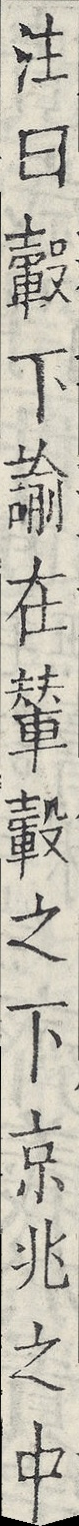注曰轂下諭在輦轂之下京兆之中
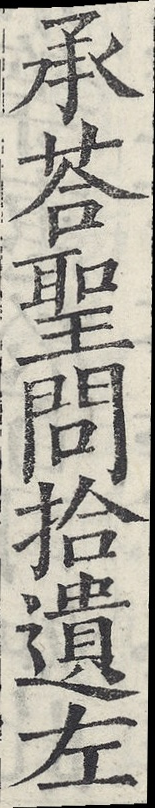承荅聖問拾遺左
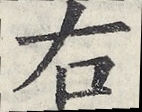右
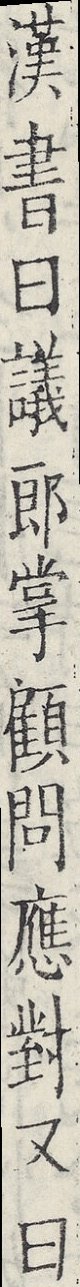漢書曰議郎掌顧問應對又曰
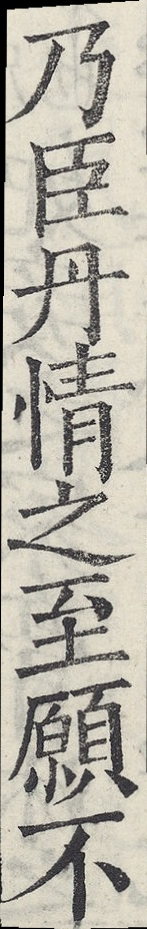乃臣丹情之至願不
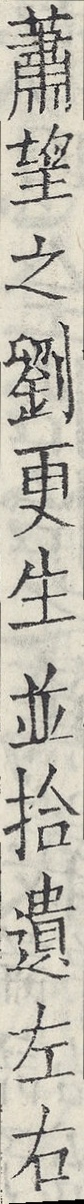蕭望之劉更生並拾遺左右
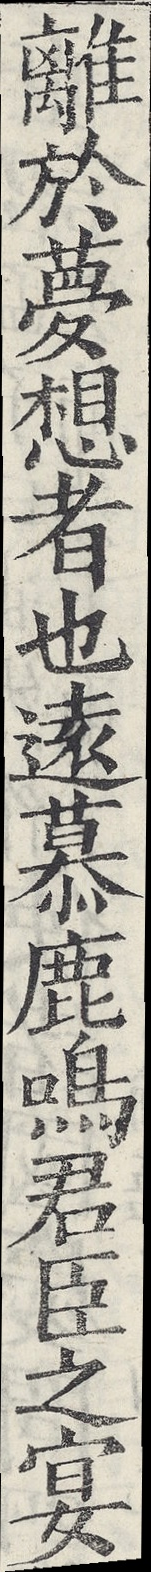離於夢想者也遠慕鹿鳴君臣之宴
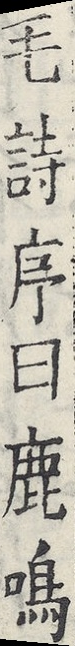毛詩序曰鹿鳴
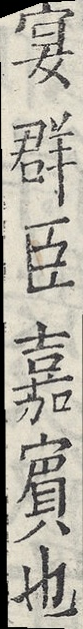宴群臣嘉賔也
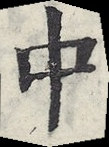中
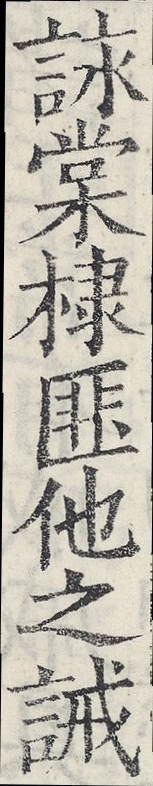詠棠棣匪他之誡
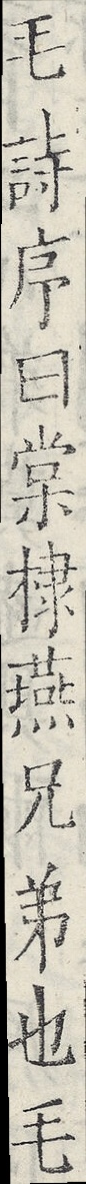毛詩序曰棠棣燕兄弟也毛
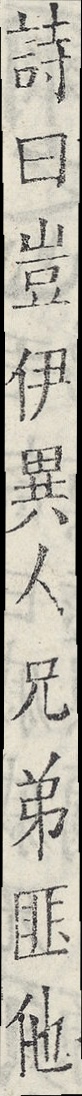詩曰豈伊異人兄弟匪他
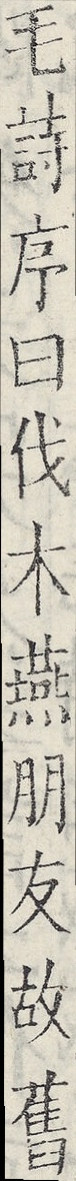毛詩序曰伐木燕朋友故舊
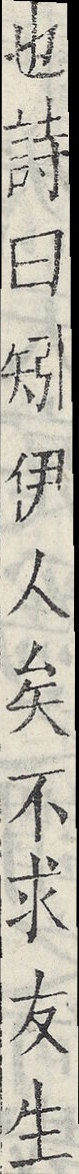也詩曰矧伊人矣不求友生
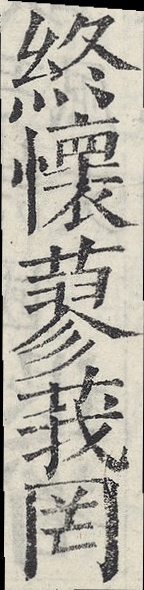終懷蓼莪罔
